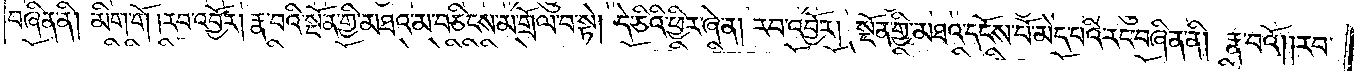བཞིན་ནི། མིག་གོ །རབ་འབྱོར། རྣ་བའི་སྔོན་གྱི་མཐའ་མ་བཅིངས་མ་གྲོལ་བ་སྟེ། དེ་ཅིའི་ཕྱིར་ཞེ་ན། རབ་འབྱོར། སྔོན་གྱི་མཐའ་དངོས་པོ་མེད་པའི་རང་བཞིན་ནི། རྣ་བའོ། །རབ་
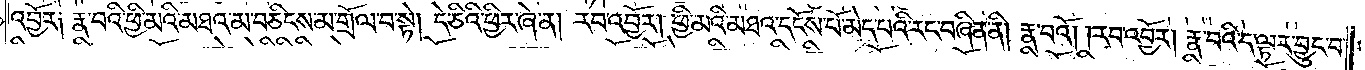འབྱོར༑ རྣ་བའི་ཕྱི་མའི་མཐའ་མ་བཅིངས་མ་གྲོལ་བ་སྟེ། དེ་ཅིའི་ཕྱིར་ཞེ་ན། རབ་འབྱོར། ཕྱི་མིའི་མཐའ་དངོས་པོ་མེད་པའི་རང་བཞིན་ནི། རྣ་བའོ། །རབ་འབྱོར། རྣ་བའི་ད་ལྟར་བྱུང་བ་
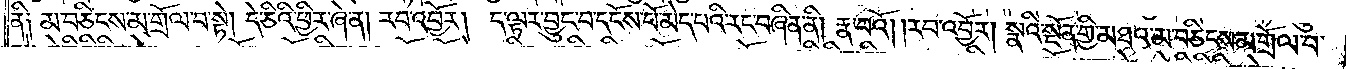ནི༑ མ་བཅིངས་མ་གྲོལ་བ་སྟེ། དེ་ཅིའི་ཕྱིར་ཞེ་ན། རབ་འབྱོར། ད་ལྟར་བྱུང་བའི་དངོས་པོ་མེད་པའི་རང་བཞིན་ནི། རྣ་བའོ། །རབ་འབྱོར། སྣའི་སྔོན་གྱི་མཐའ་མ་བཅིངས་མ་གྲོལ་བ་
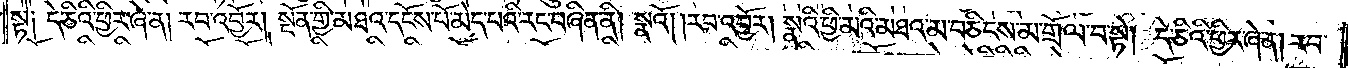སྟེ༑ དེ་ཅིའི་ཕྱིར་ཞེ་ན། རབ་འབྱོར། སྔོན་གྱི་མཐའ་དངོས་པོ་མེད་པའི་རང་བཞིན་ནི། སྣའོ། །རབ་འབྱོར། སྣའི་ཕྱི་མའི་མཐའ་མ་བཅིངས་མ་གྲོལ་བ་སྟེ། དེ་ཅིའི་ཕྱིར་ཞེ་ན། རབ་
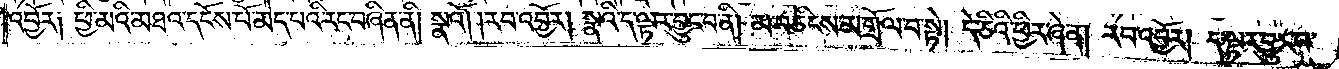འབྱོར༑ ཕྱི་མའི་མཐའ་དངོས་པོ་མེད་པའི་རང་བཞིན་ནི། སྣའོ། །རབ་འབྱོར། སྣའི་ད་ལྟར་བྱུང་བ་ནི། མ་བཅིངས་མ་གྲོལ་བ་སྟེ། དེ་ཅིའི་ཕྱིར་ཞེ་ན། རབ་འབྱོར། ད་ལྟར་བྱུང་བ་
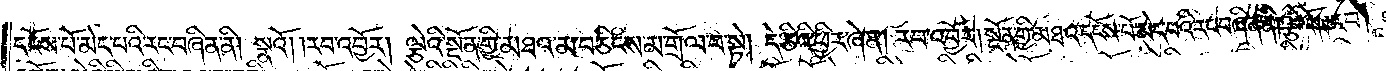དངོས་པོ་མེད་པའི་རང་བཞིན་ནི། སྣའོ། །རབ་འབྱོར། ལྕེའི་སྔོན་གྱི་མཐའ་མ་བཅིངས་མ་གྲོལ་བ་སྟེ། དེ་ཅིའི་ཕྱིར་ཞེ་ན། རབ་འབྱོར། སྔོན་གྱི་མཐའ་དངོས་པོ་མེད་པའི་རང་བཞིན་ནི། ལྕེའོ། །རབ་
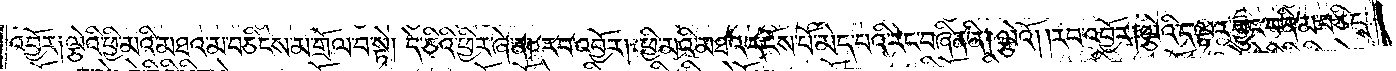འབྱོར༑ ལྕེའི་ཕྱི་མའི་མཐའ་མ་བཅིངས་མ་གྲོལ་བ་སྟེ། དེ་ཅིའི་ཕྱིར་ཞེ་ན། རབ་འབྱོར། ཕྱི་མའི་མཐའ་དངོས་པོ་མེད་པའི་རང་བཞིན་ནི། ལྕེའོ། །རབ་འབྱོར། ལྕེའི་ད་ལྟར་བྱུང་བ་ནི་མ་བཅིངས་
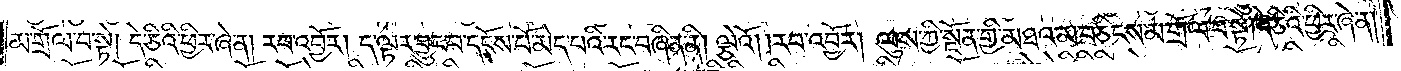མ་གྲོལ་བ་སྟེ། དེ་ཅིའི་ཕྱིར་ཞེ་ན། རབ་འབྱོར། ད་ལྟར་བྱུང་བ་དངོས་པོ་མེད་པའི་རང་བཞིན་ནི། ལྕེའོ། །རབ་འབྱོར། ལུས་ཀྱི་སྔོན་གྱི་མཐའ་མ་བཅིངས་མ་གྲོལ་བ་སྟེ། དེ་ཅིའི་ཕྱིར་ཞེ་ན།
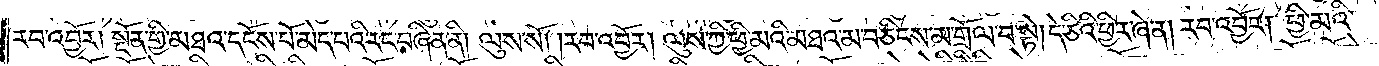རབ་འབྱོར། སྔོན་གྱི་མཐའ་དངོས་པོ་མེད་པའི་རང་བཞིན་ནི། ལུས་སོ། །རབ་འབྱོར། ལུས་ཀྱི་ཕྱི་མའི་མཐའ་མ་བཅིངས་མ་གྲོལ་བ་སྟེ། དེ་ཅིའི་ཕྱིར་ཞེ་ན། རབ་འབྱོར། ཕྱི་མའི་
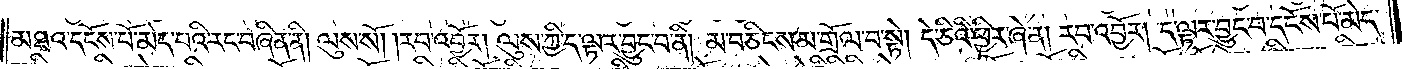མཐའ་དངོས་པོ་མེད་པའི་རང་བཞིན་ནི། ལུས་སོ། །རབ་འབྱོར། ལུས་ཀྱི་ད་ལྟར་བྱུང་བ་ནི། མ་བཅིངས་མ་གྲོལ་བ་སྟེ། དེ་ཅིའི་ཕྱིར་ཞེ་ན། རབ་འབྱོར། ད་ལྟར་བྱུང་བ་དངོས་པོ་མེད་
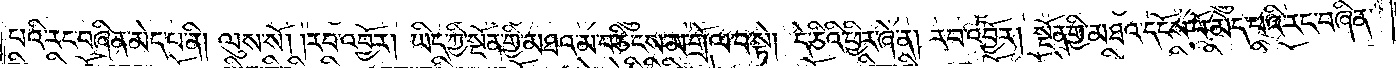པའི་རང་བཞིན་མེད་པ་ནི། ལུས་སོ། །རབ་འབྱོར། ཡིད་ཀྱི་སྔོན་གྱི་མཐའ་མ་བཅིངས་མ་གྲོལ་བ་སྟེ། དེ་ཅིའི་ཕྱིར་ཞེ་ན། རབ་འབྱོར། སྔོན་གྱི་མཐའ་དངོས་པོ་མེད་པའི་རང་བཞིན་
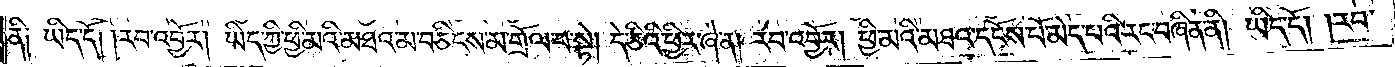ནི༑ ཡིད་དོ། །རབ་འབྱོར། ཡིད་ཀྱི་ཕྱི་མའི་མཐའ་མ་བཅིངས་མ་གྲོལ་བ་སྟེ། དེ་ཅིའི་ཕྱིར་ཞེ་ན། རབ་འབྱོར། ཕྱི་མའི་མཐའ་དངོས་པོ་མེད་པའི་རང་བཞིན་ནི། ཡིད་དོ། །རབ་
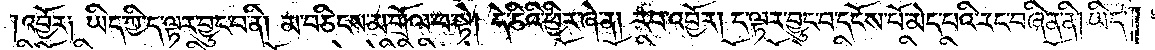འབྱོར༑ ཡིད་ཀྱི་ད་ལྟར་བྱུང་བ་ནི། མ་བཅིངས་མ་གྲོལ་བ་སྟེ། དེ་ཅིའི་ཕྱིར་ཞེ་ན། རབ་འབྱོར། ད་ལྟར་བྱུང་བ་དངོས་པོ་མེད་པའི་རང་བཞིན་ནི། ཡིད་
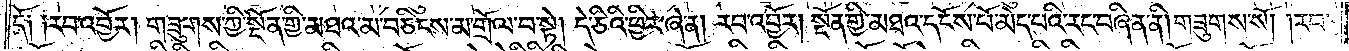དོ༑ ༑རབ་འབྱོར། གཟུགས་ཀྱི་སྔོན་གྱི་མཐའ་མ་བཅིངས་མ་གྲོལ་བ་སྟེ། དེ་ཅིའི་ཕྱིར་ཞེ་ན། རབ་འབྱོར། སྔོན་གྱི་མཐའ་དངོས་པོ་མེད་པའི་རང་བཞིན་ནི། གཟུགས་སོ། །རབ་
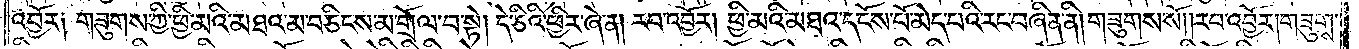འབྱོར༑ གཟུགས་ཀྱི་ཕྱི་མའི་མཐའ་མ་བཅིངས་མ་གྲོལ་བ་སྟེ། དེ་ཅིའི་ཕྱིར་ཞེ་ན། རབ་འབྱོར། ཕྱི་མའི་མཐའ་དངོས་པོ་མེད་པའི་རང་བཞིན་ནི། གཟུགས་སོ། །རབ་འབྱོར། གཟུགས་
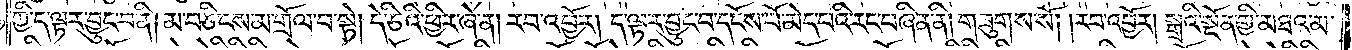ཀྱི་ད་ལྟར་བྱུང་བ་ནི། མ་བཅིངས་མ་གྲོལ་བ་སྟེ། དེ་ཅིའི་ཕྱིར་ཞེ་ན། རབ་འབྱོར། ད་ལྟར་བྱུང་བ་དངོས་པོ་མེད་པའི་རང་བཞིན་ནི། གཟུགས་སོ། །རབ་འབྱོར། སྒྲའི་སྔོན་གྱི་མཐའ་མ་
